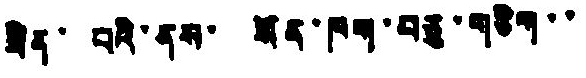ཟིན་ པའི་ནས་ སོན་ཁག་བཅུ་གཅིག་་
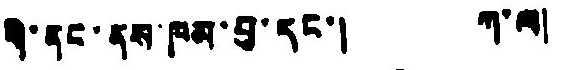གི་ནང་ནས་ཁམ་བུ་དང་། ཀ་ལ།
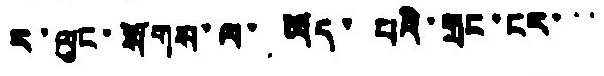ར་ལུང་སོགས་ལ་ཡོད་པའི་གྲང་ངར་་་
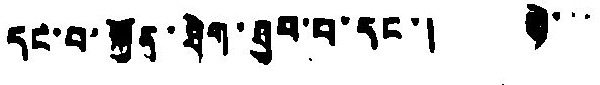དང་བ་སྐྱོན་ཐེག་ཐུབ་པ་དང་། སྟེ་་་
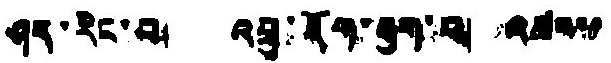ཤད་རིང་བ། འབྲུ་རོག་རྒྱག་པ། འཚར་་
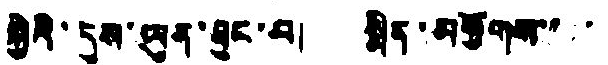སྐྱེའི་དུས་ཡུན་ཐུང་བ། སྨིན་མགྱོགས་་་་
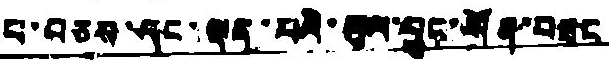བ་བཅས་དང་ལྡན་པའི་ཡུལ་བྱུང་སོན་བཟང
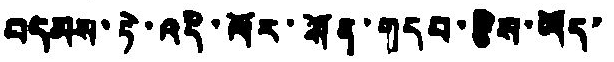བདམས་ཏེ་འདི་ལོར་སོན་གདབ་རྩིས་ཡོད་
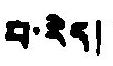པ་རེད།
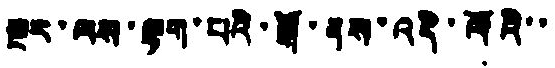སྔར་ལས་ལྷག་པའི་སྒོ་ནས་འདི་ལོའི་་
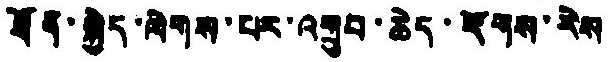ཐོན་སྐྱེད་ལེགས་པར་འགྲུབ་ཆེད་རོགས་རེས
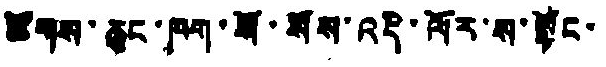ཚོགས་ཆུང་ཁག་སོ་སོས་འདི་ལོར་ས་སྟོང་
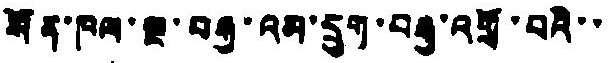སོན་ཁལ་ལྔ་བརྒྱ་འམ་དྲུག་བརྒྱ་འགྲོ་བའི་་
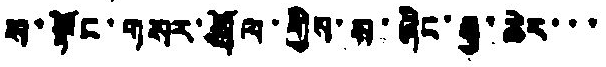ས་སྟོང་གསར་སྲོལ་གྱིས་ས་ཞིང་རྒྱ་ཆེར་་་
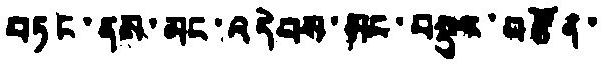བཏང་ནས་མང་འདེབས་མང་བསྡུར་བརྩོན་
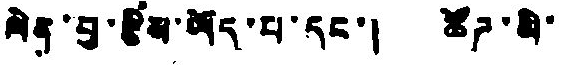ལེན་བྱ་ཇིས་ཡོད་པ་དང་། ཚོཌ་མི་
